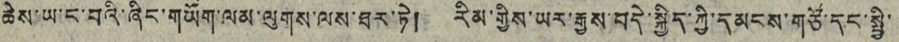ཆེས་ཡ་ང་བའི་ཞིང་གཡོག་ལམ་ལུགས་ལས་ཐར་ཏེ། རིམ་གྱིས་ཡར་རྒྱས་བདེ་སྐྱིད་ཀྱི་དམངས་གཙོ་དང་སྤྱི་
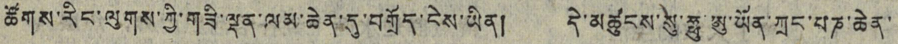ཚོགས་རིང་ལུགས་ཀྱི་གཟི་ལྡན་ལམ་ཆེན་དུ་བགྲོད་ངེས་ཡིན། དེ་མཚུངས་སུ་ཧྥུ་ཨུ་ཡོན་ཀྲད་པཎ་ཆེན་
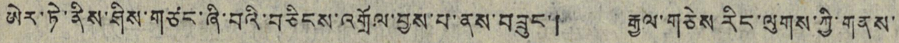ཨེར་ཏེ་ནིས་ཤིས་གཙང་ཞི་བའི་བཅིངས་འགྲོལ་བྱས་པ་ནས་བཟུང་། རྒྱལ་གཅེས་རིང་ལུགས་ཀྱི་གནས་
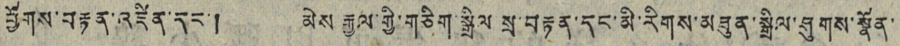ཕྱོགས་བརྟན་འཛིན་དང་། མེས རྒྱལ་གྱི་གཅིག་སྒྲིལ སྲ་བརྟན་དང་མི་རིགས་མཐུན་སྒྲིལ་ཤུགས་སྣོན་
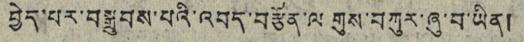བྱེད་པར་བསྒྲུབས་པའི་འབད་བརྩོན་ལ གུས་བཀུར་ཞུ་བ་ཡིན།
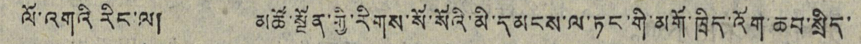ལོ་འགའི རིང་ལ། མཚོ་སྔོན་གྱི་རིགས་སོ་སོའི་མི་དམངས་ལ་ཏང་གི་མགོ་ཁྲིད་འོག་ཆབ་སྲིད་
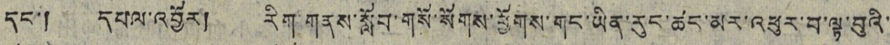དང་། དཔལ་འབྱོར། རིག་གནས་སློབ་གསོ་སོགས་ཕྱོགས་གང་ཡིན་རུང་ཚང་མར་འཕུར་བ་ལྟ་བུའི་
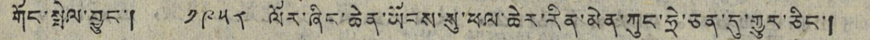གོང་སྤེལ་བྱུང་། ༡༩༥༨ ལོར་ཞིང་ཆེན་ཡོངས་སུ་ཕལ་ཆེར་རིན་མེན་ཀུང་ཧྲེ་ཅན་དུ་གྱུར་ཅིང་།
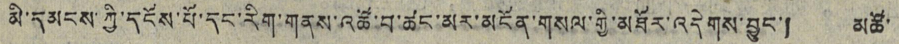མི་དམངས་ཀྱི་དངོས་པོ་དང་རིག་གནས་འཚོ་བ་ཚང་མར་མངོན་གསལ་གྱི་མཐོར་འདེགས་བྱུང་། མཚོ་
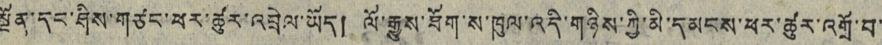སྔོན་དང་ཤིས་གཙང་ཕར་ཚུར་འབྲེལ་ཡོད། ལོ་རྒྱུས་ཐོག་ས་ཁུལ་འདི་གཉིས་ཀྱི་མི་དམངས་ཕར་ཚུར་འགྲོ་བ་
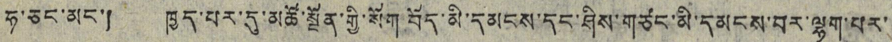ཧ་ཅང་མང་། ཁྱད་པར་དུ་མཚོ་སྔོན་གྱི་སོག་བོད་མི་དམངས་དང་ཤིས་གཙང་མི་དམངས་བར་ལྷག་པར་
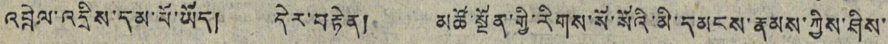འབྲེལ་འདྲིས་དམ་པོ་ཡོད། དེར་བརྟེན། མཚོ་སྔོན་གྱི་རིགས་སོ་སོའི་མི་དམངས་རྣམས་ཀྱིས་ཤིས་
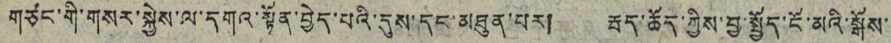གཙང་གི་གསར་སྐྱེས་ལ་དགའ་སྟོན་བྱེད་པའི་དུས་དང་མཐུན་པར། རྦད་ཆོད་ཀྱིས་བྱ་སྤྱོད་ངོ་མའི་སྒོས་
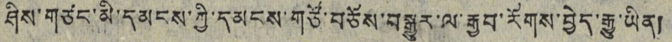ཤིས་གཙང་མི་དམངས་ཀྱི་དམངས་གཙོ་བཅོས་བསྒྱུར་ལ་རྒྱབ་རོགས་བྱེད་རྒྱུ་ཡིན།
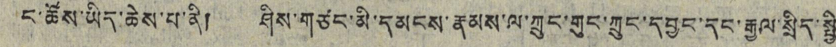ང་ཚོས་ཡིད་ཆེས་པ་ནི། ཤིས་གཙང་མི་དམངས་རྣམས་ལ་ཀྲུང་གུང་ཀྲུང་དབྱང་དང་རྒྱལ་སྲིད་སྤྱི་
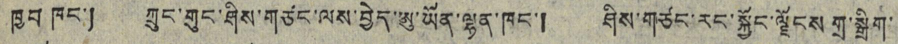ཁྱབ ཁང་། ཀྲུང་གུང་ཤིས་གཙང་ལས་བྱེད་ཨུ་ཡོན་ལྷན་ཁང་། ཤིས་གཙང་རང་སྐྱོང་ལྗོངས གྲ་སྒྲིག་
